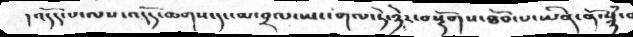། འདོད་པ་ལས་འདོད་ཆགས་དང་མ་བྲལ་ཡང་གལ་ཏེ་ཉེར་བསྡོགས་ཐོབ་པ་ཡིན་ནོ་སྙཾ་
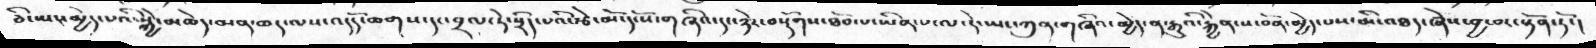ཅི་ཡང་མྱེད་པའི་སྐྱེ་མཆེད་མན་ཆད་ལས་འདོད་ཆགས་དང་བྲལ་ཏེ་སྲིད་པའི་རྩེ་མོ་དངོས་གཞིའ་དང་ཉེར་བསྡོགས་ཐོབ་པ་ཡིན་པ་ལ་དེ་ཡང་ཀུན་གཞིའ་མྱེད་ན་རྒྱུའི་རྐྱེན་ས་བོན་མྱེད་པས་མི་འཐད་ཞེས་བྱ་བར་སྟོན་ཏོ་།
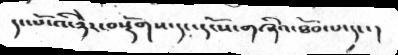དང་པོ་འི་ཉེར་བསྡོགས་དང་དངོས་གཞིའ་ཐོབ་པ་དང་།
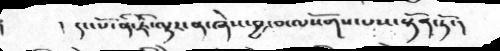།       །  དང་པོ་ནི་ཇི་ལྟར་ན་ཞེས་བྱ་བ་ལསོགས་པས་སྟོན་ཏོ་།
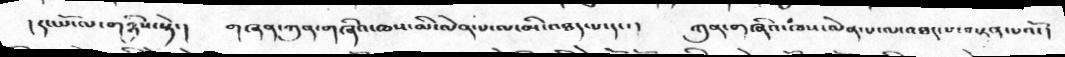། དང་པོ་ལ་གཉིས་སྟེ་།    གཞན་ཀུན་གཞིའ་ཁས་མི་ལེན་པ་ལ་མི་འཐད་པ་དང་།    ཀུན་གཞིའ་ཁས་ལེན་པ་ལ་འཐད་པ་བསྟན་པའོ་།
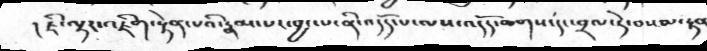། ཇི་ལྟར་འཇིག་རྟེན་པའི་་རྣམ་པར་བྱང་པ་ནི་འདོད་པ་ལས་འདོད་ཆགས་དང་བྲལ་ཏེ་བསམ་རྟན
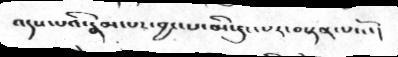འདས་པའི་རྣམ་པར་བྱང་པ་མི་རུང་པར་བསྟན་པའོ་།
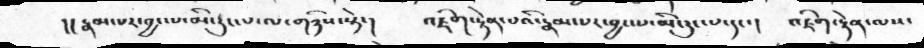།། རྣམ་པར་བྱང་པ་མི་རུང་པ་ལ་གཉིས་སྟེ་།    འཇིག་རྟེན་པའི་རྣམ་པར་བྱང་པ་མི་རུང་པ་དང་།   འཇིག་རྟེན་ལས་
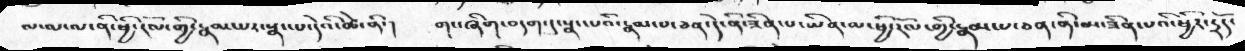ལ་ལ་ལ་ནི་ཕྱི་རོལ་གྱི་རྣམ་པར་སྣང་པ་དེའི་ཚེ་ནི་།  གང་ཞིག་བདག་དུ་སྣང་པའི་རྣམ་པ་ཅན་དེ་ནི་ཟིན་པ་ཡིན་ལ་ཕྱི་རོལ་གྱི་རྣམ་པ་ཅན་ནི་མ་ཟིན་པའི་ཕྱིར་དྲོད་
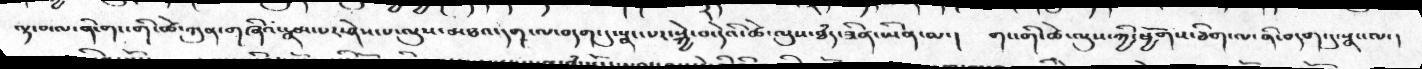ལྟ་བ་ལ་ནི་གང་གི་ཚེ་ཀུན་གཞི་རྣམ་པར་ཤེས་པ་ལུས་མཐའ་དག་ལ་བདག་དུ་སྣང་པར་སྐྱེ་བ་དེའི་ཚེ་ལུས་ཐཾད་ཟིན་ཡིན་ལ་།  གང་གི་ཚེ་ལུས་ཀྱི་ཕྱོགས་ཅིག་ལ་ནི་བདག་དུ་སྣང་ལ་།
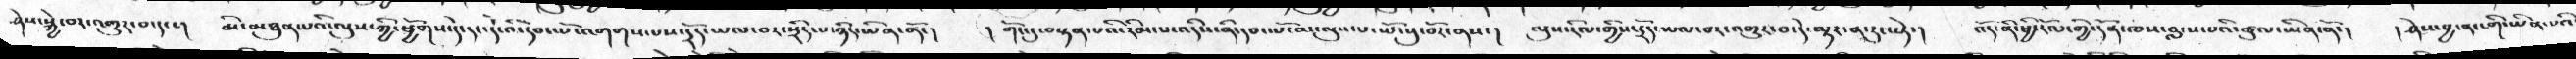ཤེས་སྐྱེ་བར་འགྱུར་པ་དང་།  མི་མཐུན་པའི་ལུས་ཀྱི་ཕྱོགས་དེ་དང་དེ་འི་དབང་པོ་འགགས་པས་དྲོད་ཡལ་བར་སྲིད་པ་ཉིད་ཡིན་ནོ་།  །གོང་དུ་བསྟན་པའི་རིམ་པ་འདིས་ནི་དབང་པོ་མ་ལུས་པ་ཡོངསུ་བོར་ནས་།  ལུས་རིམ་གྱིས་དྲོད་ཡལ་བར་འགྱུར་བ་དེ་ལྟར་ན་རུང་སྟེ་།  འོད་ནི་ཕྱི་རོལ་གྱི་དོན་ཁས་བླངས་པའི་ཚུལ་ཡིན་ནོ་།  །ཤེསབྱ་ནང་གི་་ཡིན་པའི
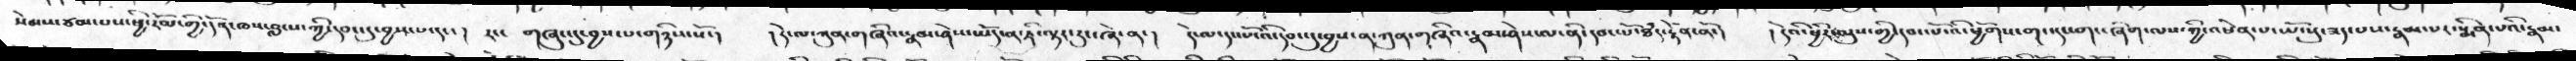སེམས་ཙམ་པས་ཕྱི་རོལ་གྱི་དོན་ཁས་བླངས་ཀྱི་དབང་དུ་བྱས་པདང་།  རང་  གཞུང་དུ་བྱས་པ་གཉིས་སོ་།   །དེ་ལ་ཀུན་གཞིའ་རྣམ་ཤེས་ཡོད་ན་ཇི་ལྟར་རུང་ཞེ་ན་།  དེ་ལ་དང་པོ་འི་དབང་དུ་བྱས་ན་ཀུན་གཞིའ་རྣམ་ཤེས་ལ་ནི་དབང་པོ་ཐཾད་རྟེན་ནོ་།  །དེའི་ཕྱིར་ལུས་གྱི་དབང་པོ་འི་ཕྱོགས་གང་དང་གང་ཞིག་ལས་གྱི་འཕེན་པ་ཡོངསུ་ཟད་པས་རྣམ་པར་སྨིན་པའི་རྣམ་
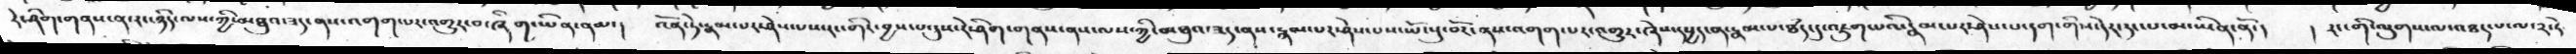རེ་ཤིག་གནས་ན་རང་ཉིད་ལས་ཀྱི་མཐུའ་ཟད་ནས་འགག་པར་འགྱུར་བ་ཞིག་ཡིན་ནམ་།  འོན་ཏེ་རྣམ་པར་ཤེས་པས་རང་གིར་བྱས་པ་དུས་རེ་ཤིག་གནས་ནས་ལས་ཀྱི་མཐུའ་ཟད་ནས་རྣམ་པར་ཤེས་པས་ཡོངསུ་བོར་ནས་འགག་པར་འགྱུར་ཞེས་དཔྱད་ན་རྣམ་པ་ཐཾད་དུ་འཇུག་པའི་རྣམ་པར་ཤེས་པ་དག་གིས་དེར་རུང་པ་མ་ཡིན་ནོ་།  ། རང་གི་ལུགས་ལ་འཐད་པ་ལ་༢་རེ་
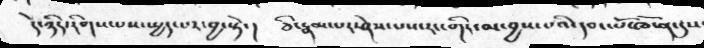དེ་ཉིད་རིགས་པས་སྤྱད་པར་བྱ་སྟེ་།  ཅི་རྣམ་པར་ཤེས་པས་རང་གིར་མ་བྱས་པའི་དབང་པོ་ཁོ་ན་དུས་
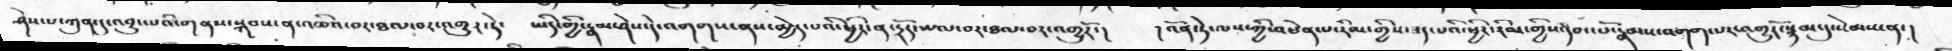ཤེས་པ་ཀུན་དུ་འབྱུང་པའི་གནས་སྐབས་ན་འཆིའ་བར་ཐལ་བར་འགྱུར་ཏེ་   ཡིད་གྱི་རྣམ་ཤེས་དེ་འགགས་ནས་མྱེད་པའི་ཕྱིར་ན་དྲོད་ཡལ་བར་ཐལ་བར་འགྱུརོ་།     ། འོན་ཏེ་ལས་ཀྱི་འཕེན་པ་རིམ་གྱིས་ཟད་པའི་ཕྱིར་རིམ་གྱིས་དབང་པོ་རྣམས་འགག་པར་འགྱུརོ་སྙམ་དུ་སེམས་ན་།
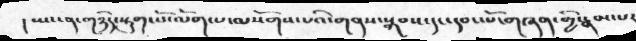།   ཡང་ན་གཉིད་སྟུག་པོ་ལོག་པ་ལསོགས་པའི་གནས་སྐབས་དང་དབང་པོ་གཞན་གྱི་རྣམ་པར
